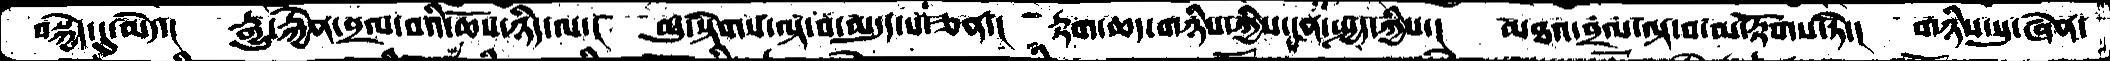བསྐྱེད་དུ་མེད་།  རྒྱུ་རྐྱེན་བྲལ་བའི་ཆོས་ཉིད་ལ་།  མུ་སྟེགས་ལྟ་བ་མདུད་པ་ཅན་།  རྟག་ཆད་གཉིས་ཀྱིས་ངན་སྤྱད་ཀྱིས་།  མཐའ་བྲལ་ལྟ་བ་མ་རྟོགས་ཏེ་།  གཉིས་སུ་ཞེན་
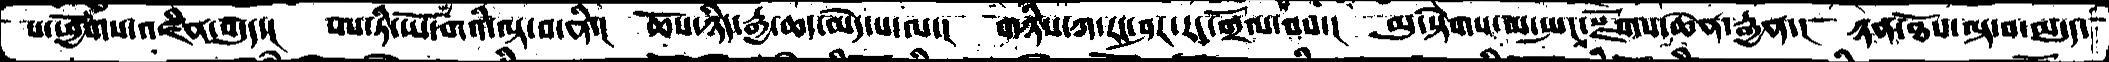ས་ཕྱོགས་འཛིན་བདུད་། ཨ་ཏི་ཡོ་གའི་ལྟ་བ་ནི་། ཆོས་ཉིད་རྒྱ་ཆད་མེད་པ་ལ་། གཉིས་ཀ་རང་ཤར་རང་གྲོལ་ནས་། མུ་སྟེགས་མ་སྤང་སྫོགས་ཆེན་རྒྱན་། ཉན་ཐོས་ལྟ་བ་མདུད་
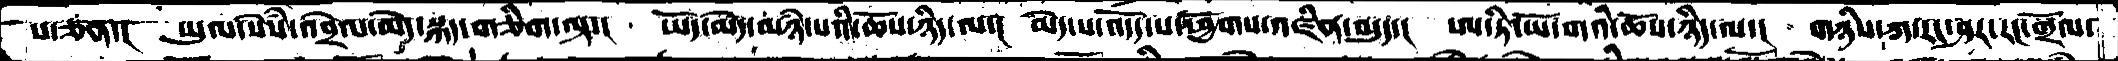པ་ཅན་།  ཡུལ་སེཾས་འབྲེལ་མེད་སྐད་གཅིག་ལྟ་།  ཡོད་མེད་མཉཾ་པའི་ཆོས་ཉིད་ལ་།  མེད་པ་འདོད་པ་ཕྱོགས་འཛིན་བདུད་།  ཨ་ཏི་ཡོ་གའི་ཆོས་ཉིད་ལ་།  གཉིས་ཀ་རང་ཤར་རང་གྲོལ་
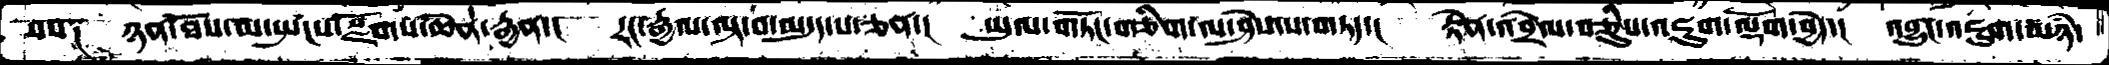པས༑  ཉན་ཐོས་མ་སྤངས་སྫོགས་ཆེན་རྒྱན་། རང་རྒྱལ་ལྟ་བ་མདུད་པ་ཅན་།  ཡུལ་གཏོང་གཅིག་ལ་ཤེས་པ་གཏད་།  རྟེན་འབྲེལ་བཅིུས་འཇུག་ལྡོག་བྱེད་།  འབྱུང་འཇུག་མཉཾ་
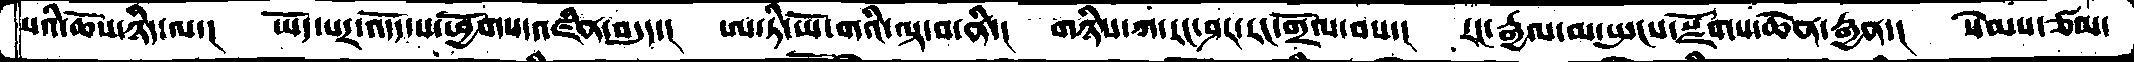པའི་ཆོས་ཉིད་ལ་། ཡོད་པར་འདོད་པ་ཕྱོགས་འཛིན་བདུད་།  ཨ་ཏི་ཡོ་གའི་ལྟ་བ་ནི་།  གཉིས་ཀ་རང་ཤར་རང་གྲོལ་བས་།  རང་རྒྱལ་མ་སྤངས་སྫོགས་ཆེན་རྒྱན་།  སེམས་ཙམ་
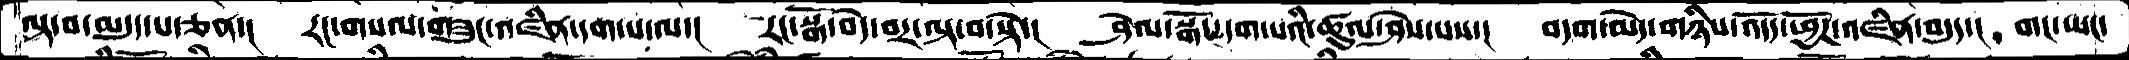ལྟ་བ་མདུད་པ་ཅན་།  རང་གསལ་གཟུང་འཛིན་དག་པ་ལ་།  རང་སྒོ་བདེ་བར་ལྟ་བ་སྟེ་།  ཤེལ་སྒོང་དག་པའི་ཚུལ་ཤེས་པས་།  བདག་མེད་གཉིས་འདོད་ཕྱོཌ་འཛིན་བདུད་།  གང་ཡང་
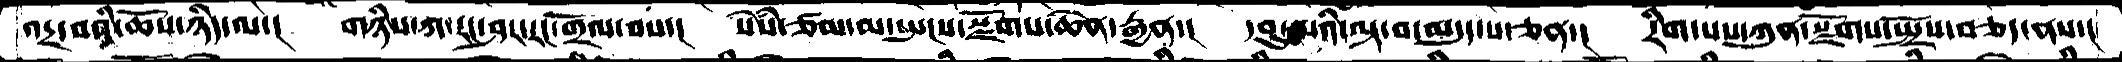འདྲ་བའི་ཆོས་ཉིད་ལ་།  གཉིས་ཀ་རང་ཤར་རང་གྲོལ་བས་།  སེཾས་ཙམ་མ་སྤངས་སྫོགས་ཆེན་རྒྱན་། དབུ་མའི་ལྟ་བ་མདུད་པ་ཅན་།  རིག་པས་ཀུན་སྫོགས་སྤྲོས་བཅད་ནས་།
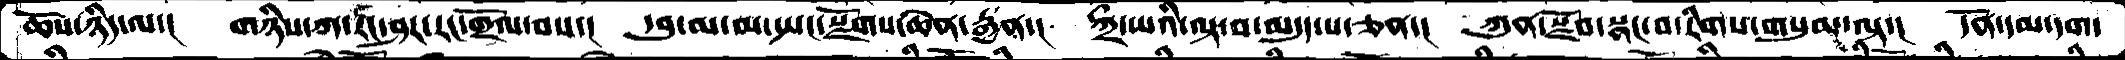ཆོས་ཉིད་ལ་།  གཉིས་ཀ་རང་ཤར་རང་གྲོལ་བས་།  དབུ་མ་མ་སྤང་སྫོགས་ཆེན་རྒྱན་།  ཀྲྀ་ཡའི་ལྟ་བ་མདུད་པ་ཅན་།  ཀུན་སྫོབ་སྣང་བ་རིགས་གསུམ་ལྟ་།  དོན་དམ་དག་
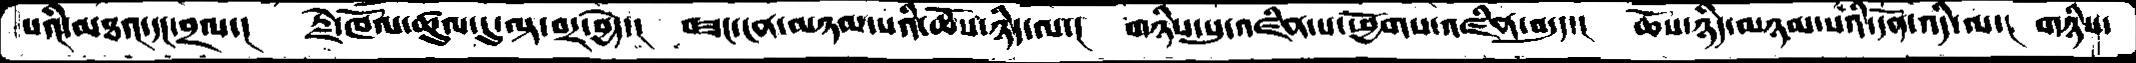པའི་མཐའ་དང་བྲལ་།  རྗེ་ཁོལ་ཚུལ་དུ་ལྟ་བར་བྱེད་།  བཟང་ངན་མཉམ་པའི་ཆོས་ཉིད་ལ་།  གཉིས་སུ་འཛིན་པ་ཕྱོགས་འཛིན་བདུད་།  ཆོས་ཉིད་མཉམ་པའི་དོན་འདི་ལ་།  གཉིས་
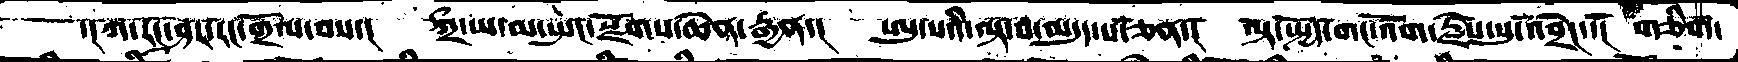་།ཀ་རང་ཤར་རང་གྲོལ་བས་།  ཀྲྀ་ཡ་མ་སྤང་སྫོགས་ཆེན་རྒྱན་།  ཨུ་པའི་ལྟ་བ་མདུད་པ་ཅན་།  ལྟ་སྤྱོད་གང་འོག་རྗེས་སུ་འབྲེང་་།  གཅིག་
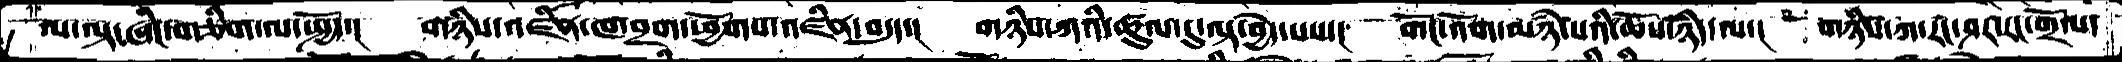ལ་ལྟ་ཞིང་གཅིག་ལ་སྤྱོད་།  གཉིས་འཛིན་ཁ་བྲག་ཕྱོགས་འཛིན་བདུད་།  གཉིས་ཀའི་ཚུལ་དུ་ལྟ་བྱེད་པས་།  གོང་འོག་མཉཾ་པའི་ཆོས་ཉིད་ལ་།  གཉིས་ཀ་རང་ཤར་རང་གྲོལ་
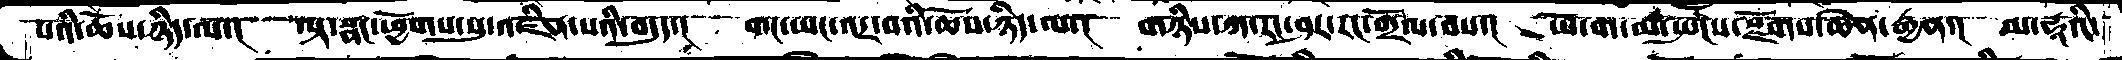པའི་ཆོས་ཉིད་ལ་།  ལྟ་སྣང་ཕྱོགས་སུ་འཛིན་པའི་བདུད་།  གང་ཡང་འདྲ་བའི་ཆོས་ཉིད་ལ་།  གཉིས་ཀ་རང་ཤར་རང་གྲོལ་བས་།  ཡོ་ག་མ་སྤངས་སྫོགས་ཆེན་རྒྱན་།  མ་ཧཱའི་
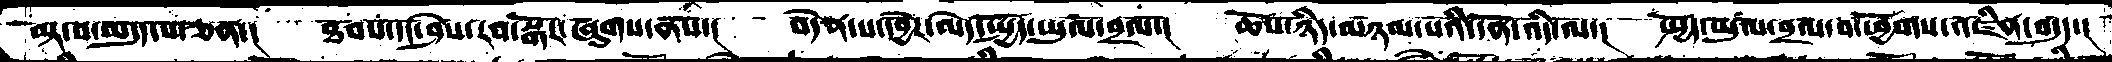ལྟ་བ་མདུད་པ་ཅན་།  ཐབས་དང་ཤེར་རབ་སྒོར་ཞུགས་ནས་།  བདེན་པ་དབྱེར་མེད་སྤྱོད་ཡུལ་བྲལ་།  ཆོས་ཉིད་མཉམ་པའི་དོན་འདི་ལ་།  སྤྱོད་ཡུལ་བྲལ་བ་ཕྱོགས་འཛིན་བདུད་།
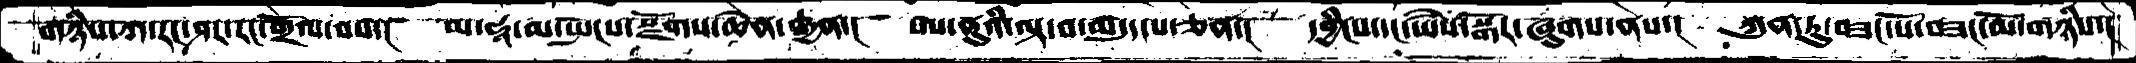གཉིས་ཀ་རང་ཤར་རང་གྲོལ་བས་།  མ་ཧཱ་མ་སྤངས་སྫོགས་ཆེན་རྒྱན་།  ཨ་ནུའི་ལྟ་བ་མདུད་པ་ཅན་།  དབྱིངས་དང་ཡཻས་སྒོར་ཞུགས་ནས་།  ཀུན་ཏུ་བཟང་པོ་བཟང་མོ་གཉིས་།
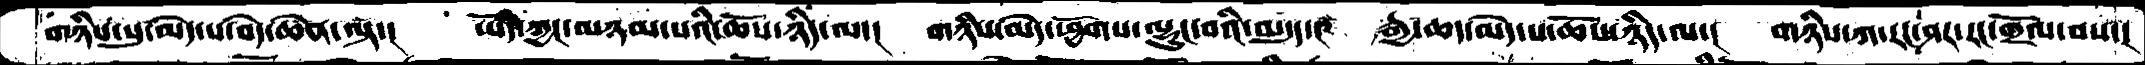གཉིས་སུ་མེད་པ་བདེ་ཆེན་ལྟ་།  ཡོད་ཀྱང་མཉམ་པའི་ཆོས་ཉིད་ལ་།  གཉིས་མེད་ཕྱོགས་ལྷུང་བའི་མདུད་།  རྒྱ་ཆད་མེད་པ་ཆོས་ཉིད་ལ་།  གཉིས་ཀ་རང་ཤར་རང་གྲོལ་བས་།
